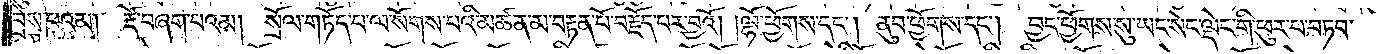བྲེས་པའམ། རྡོ་བཞག་པའམ། སྲོལ་གཏོད་པ་ལ་སོགས་པའི་མཚན་མ་བརྟན་པོ་བརྗོད་པར་བྱའོ། །ལྷོ་ཕྱོགས་དང༌། ནུབ་ཕྱོགས་དང༌། བྱང་ཕྱོགས་སུ་ཡང་སེང་ལྡེང་གི་ཕུར་པ་བཏབ་
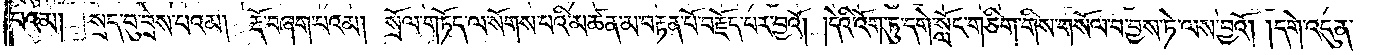པའམ། སྲད་བུ་བྲེས་པའམ། རྡོ་བཞག་པའམ། སྲོལ་གཏོད་ལ་སོགས་པའི་མཚན་མ་བརྟན་པོ་བརྗོད་པར་བྱའོ། །དེའི་འོག་ཏུ་དགེ་སློང་གཅིག་གིས་གསོལ་བ་བྱས་ཏེ་ལས་བྱའོ། །དགེ་འདུན་
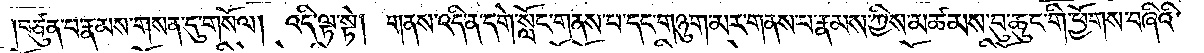བཙུན་པ་རྣམས་གསན་དུ་གསོལ། འདི་ལྟ་སྟེ། གནས་འདི་ན་དགེ་སློང་གནས་པ་དང་གཉུག་མར་གནས་པ་རྣམས་ཀྱིས་མཚམས་བུ་ཆུང་གི་ཕྱོགས་བཞིའི་
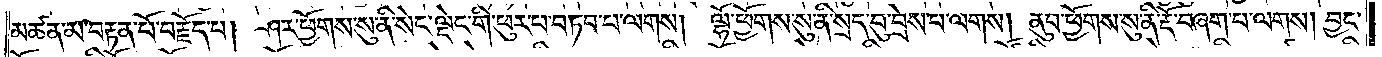མཚན་མ་བརྟན་པོ་བརྗོད་པ། ཤར་ཕྱོགས་སུ་ནི་སེང་ལྡེང་གི་ཕུར་པ་བཏབ་པ་ལགས། ལྷོ་ཕྱོགས་སུ་ནི་སྲད་བུ་བྲེས་པ་ལགས། ནུབ་ཕྱོགས་སུ་ནི་རྡོ་བཞག་པ་ལགས། བྱང་
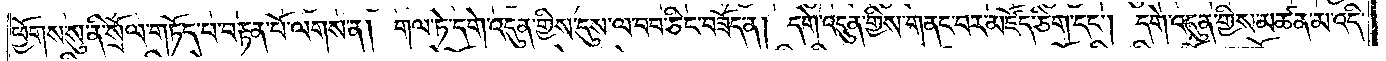ཕྱོགས་སུ་ནི་སྲོལ་གཏོད་པ་བརྟན་པོ་ལགས་ན། གལ་ཏེ་དགེ་འདུན་གྱིས་དུས་ལ་བབ་ཅིང་བཟོད་ན། དགེ་འདུན་གྱིས་གནང་བར་མཛོད་ཅིག་དང༌། དགེ་འདུན་གྱིས་མཚན་མ་འདི་
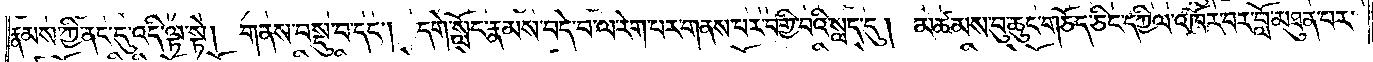རྣམས་ཀྱི་ནང་དུ་འདི་ལྟ་སྟེ། གནས་བསྡུ་བ་དང༌། དགེ་སློང་རྣམས་བདེ་བ་ལ་རེག་པར་གནས་པར་བགྱི་བའི་སླད་དུ། མཚམས་བུ་ཆུང་གཅོད་ཅིང་དཀྱིལ་འཁོར་བར་བློ་མཐུན་པར་
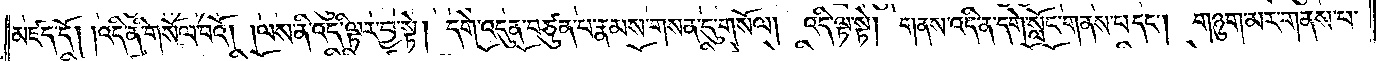མཛད་དོ། །འདི་ནི་གསོལ་བའོ། །ལས་ནི་འདི་ལྟར་བྱ་སྟེ། དགེ་འདུན་བཙུན་པ་རྣམས་གསན་དུ་གསོལ། འདི་ལྟ་སྟེ། གནས་འདི་ན་དགེ་སློང་གནས་པ་དང༌། གཉུག་མར་གནས་པ་
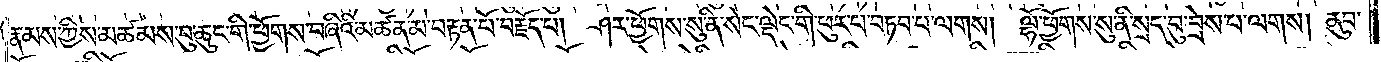རྣམས་ཀྱིས་མཚམས་བུ་ཆུང་གི་ཕྱོགས་བཞིའི་མཚན་མ་བརྟན་པོ་བརྗོད་པ། ཤར་ཕྱོགས་སུ་ནི་སེང་ལྡེང་གི་ཕུར་པ་བཏབ་པ་ལགས། ལྷོ་ཕྱོགས་སུ་ནི་སྲད་བུ་བྲེས་པ་ལགས། ནུབ་
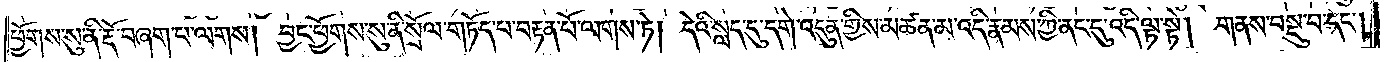ཕྱོགས་སུ་ནི་རྡོ་བཞག་པ་ལགས། བྱང་ཕྱོགས་སུ་ནི་སྲོལ་གཏོད་པ་བརྟན་པོ་ལགས་ཏེ། དེའི་སླད་དུ་དགེ་འདུན་གྱིས་མཚན་མ་འདི་རྣམས་ཀྱི་ནང་དུ་འདི་ལྟ་སྟེ། གནས་བསྡུ་བ་དང༌།
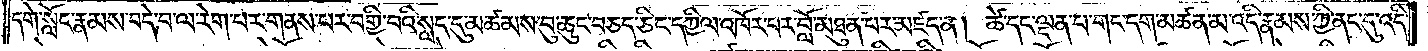དགེ་སློང་རྣམས་བདེ་བ་ལ་རེག་པར་གནས་པར་བགྱི་བའི་སླད་དུ་མཚམས་བུ་ཆུང་བཅད་ཅིང་དཀྱིལ་འཁོར་བར་བློ་མཐུན་པར་མཛད་ན། ཚེ་དང་ལྡན་པ་གང་དག་མཚན་མ་འདི་རྣམས་ཀྱི་ནང་དུ་འདི་
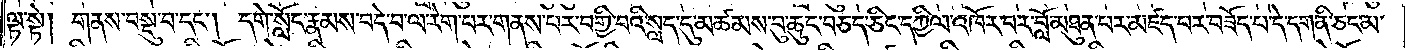ལྟ་སྟེ། གནས་བསྡུ་བ་དང༌། དགེ་སློང་རྣམས་བདེ་བ་ལ་རེག་བར་གནས་པར་བགྱི་བའི་སླད་དུ་མཚམས་བུ་ཆུང་བཅད་ཅིང་དཀྱིལ་འཁོར་བར་བློ་མཐུན་པར་མཛད་པར་བཟོད་པ་དེ་དག་ནི་ཅང་མ་
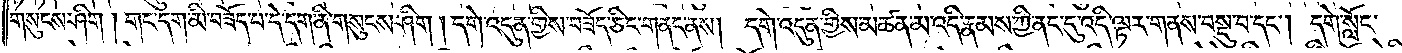གསུངས་ཤིག །གང་དག་མི་བཟོད་པ་དེ་དག་ནི་གསུངས་ཤིག ། དགེ་འདུན་གྱིས་བཟོད་ཅིང་གནང་ནས། དགེ་འདུན་གྱིས་མཚན་མ་འདི་རྣམས་ཀྱི་ནང་དུ་འདི་ལྟར་གནས་བསྡུ་བ་དང༌། དགེ་སློང་
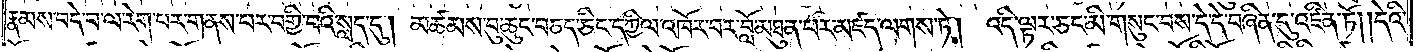རྣམས་བདེ་བ་ལ་རེག་པར་གནས་པར་བགྱི་བའི་སླད་དུ། མཚམས་བུ་ཆུང་བཅད་ཅིང་དཀྱིལ་འཁོར་བར་བློ་མཐུན་པར་མཛད་ལགས་ཏེ། འདི་ལྟར་ཅང་མི་གསུང་བས་དེ་དེ་བཞིན་དུ་འཛིན་ཏོ། །དེའི་
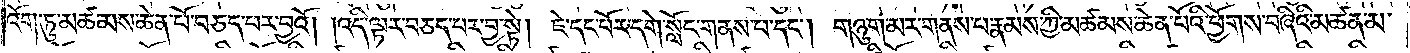འོག་ཏུ་མཚམས་ཆེན་པོ་བཅད་པར་བྱའོ། །འདི་ལྟར་བཅད་པར་བྱ་སྟེ། ཇེ་དང་པོར་དགེ་སློང་གནས་པ་དང༌། གཉུག་མར་གནས་པ་རྣམས་ཀྱི་མཚམས་ཆེན་པོའི་ཕྱོགས་བཞིའི་མཚན་མ་
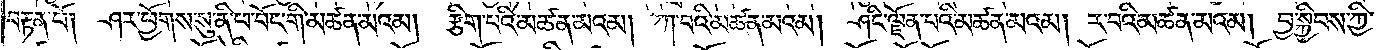བརྟན་པོ། ཤར་ཕྱོགས་སུ་ནི་ཕ་བོང་གི་མཚན་མའམ། རྩིག་པའི་མཚན་མའམ། ཀ་བའི་མཚན་མའམ། ཤིང་ལྗོན་པའི་མཚན་མའམ། ར་བའི་མཚན་མའམ། བྱ་སྐྱིབས་ཀྱི་
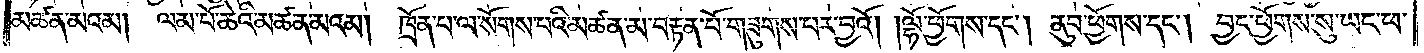མཚན་མའམ། ལམ་པོ་ཆེའི་མཚན་མའམ། ཁྲོན་པ་ལ་སོགས་པའི་མཚན་མ་བརྟན་པོ་གཟུགས་པར་བྱའོ། །ལྷོ་ཕྱོགས་དང༌། ནུབ་ཕྱོགས་དང༌། བྱང་ཕྱོགས་སུ་ཡང་ཕ་
